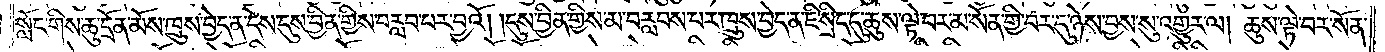སློང་གིས་ཆུ་དྲོན་མོས་ཁྲུས་བྱེད་ན་དེས་དུས་བྱིན་གྱིས་བརླབ་པར་བྱའོ། །དུས་བྱིན་གྱིས་མ་བརླབས་པར་ཁྲུས་བྱེད་ན་ཇི་སྲིད་དུ་ཆུས་ལྟེ་བར་མ་སོན་གྱི་བར་དུ་ཉེས་བྱས་སུ་འགྱུར་ལ། ཆུས་ལྟེ་བར་སོན་
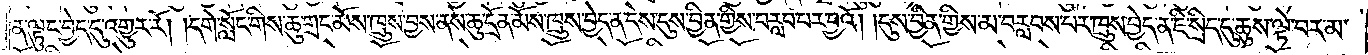ན་ལྟུང་བྱེད་དུ་འགྱུར་རོ། །དགེ་སློང་གིས་ཆུ་གྲང་མོས་ཁྲུས་བྱས་ནས་ཆུ་དྲོན་མོས་ཁྲུས་བྱེད་ན་དེས་དུས་བྱིན་གྱིས་བརླབ་པར་བྱའོ། །དུས་བྱིན་གྱིས་མ་བརླབས་པར་ཁྲུས་བྱེད་ན་ཇི་སྲིད་དུ་ཆུས་ལྟེ་བར་མ་
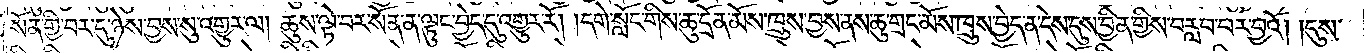སོན་གྱིས་བར་དུ་ཉེས་བྱས་སུ་འགྱུར་ལ། ཆུས་ལྟེ་བར་སོན་ན་ལྟུང་བྱེད་དུ་འགྱུར་རོ། །དགེ་སློང་གིས་ཆུ་དྲོན་མོས་ཁྲུས་བྱས་ནས་ཆུ་གྲང་མོས་ཁྲུས་བྱེད་ན་དེས་དུས་བྱིན་གྱིས་བརླབ་པར་བྱའོ། །དུས་
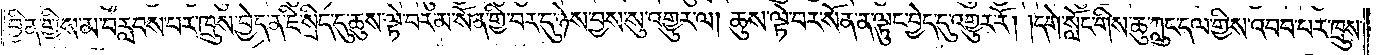བྱིན་གྱིས་མ་བརླབས་པར་ཁྲུས་བྱེད་ན་ཇི་སྲིད་དུ་ཆུས་ལྟེ་བར་མ་སོན་གྱི་བར་དུ་ཉེས་བྱས་སུ་འགྱུར་ལ། ཆུས་ལྟེ་བར་སོན་ན་ལྟུང་བྱེད་དུ་འགྱུར་རོ། །དགེ་སློང་གིས་ཆུ་ཀླུང་དལ་གྱིས་འབབ་པར་ཁྲུས་
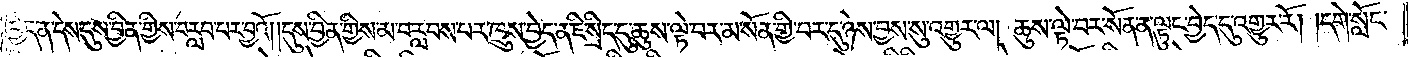བྱེད་ན་དེས་དུས་བྱིན་གྱིས་བརླབ་པར་བྱའོ། །དུས་བྱིན་གྱིས་མ་བརླབས་པར་ཁྲུས་བྱེད་ན་ཇི་སྲིད་དུ་ཆུས་ལྟེ་བར་མ་སོན་གྱི་བར་དུ་ཉེས་བྱས་སུ་འགྱུར་ལ། ཆུས་ལྟེ་བར་སོན་ན་ལྟུང་བྱེད་དུ་འགྱུར་རོ། །དགེ་སློང་
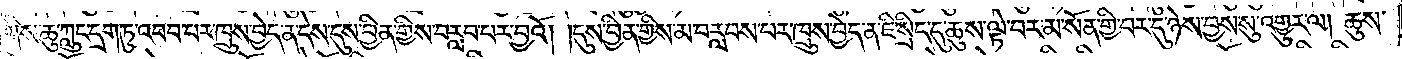གིས་ཆུ་ཀླུང་དྲག་ཏུ་འབབ་པར་ཁྲུས་བྱེད་ན་དེས་དུས་བྱིན་གྱིས་བརླབ་པར་བྱའོ། །དུས་བྱིན་གྱིས་མ་བརླབས་པར་ཁྲུས་བྱེད་ན་ཇི་སྲིད་དུ་ཆུས་ལྟེ་བར་མ་སོན་གྱི་བར་དུ་ཉེས་བྱས་སུ་འགྱུར་ལ། ཆུས་
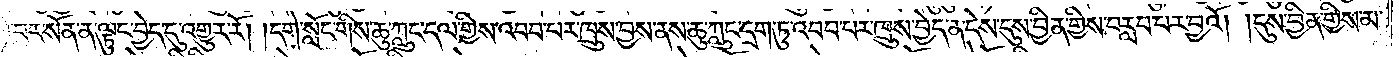ལྟེ་བར་སོན་ན་ལྟུང་བྱེད་དུ་འགྱུར་རོ། །དགེ་སློང་གིས་ཆུ་ཀླུང་དལ་གྱིས་འབབ་པར་ཁྲུས་བྱས་ནས་ཆུ་ཀླུང་དྲག་ཏུ་འབབ་པར་ཁྲུས་བྱེད་ན་དེས་དུས་བྱིན་གྱིས་བརླབ་པར་བྱའོ། །དུས་ཕྱིན་གྱིས་མ་
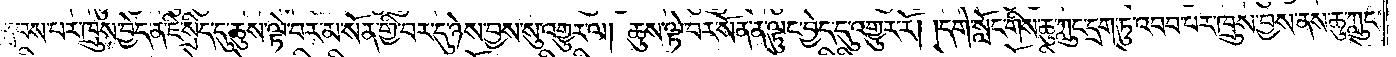བརླབས་པར་ཁྲུས་བྱེད་ན་ཇི་སྲིད་དུ་ཆུས་ལྟེ་བར་མ་སོན་གྱི་བར་དུ་ཉེས་བྱས་སུ་འགྱུར་ལ། ཆུས་ལྟེ་བར་སོན་ན་ལྟུང་བྱེད་དུ་འགྱུར་རོ། །དགེ་སློང་གིས་ཆུ་ཀླུང་དྲག་ཏུ་འབབ་པར་ཁྲུས་བྱས་ནས་ཆུ་ཀླུང་
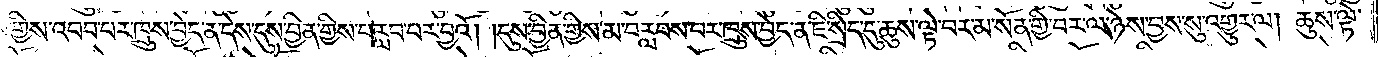དལ་གྱིས་འབབ་པར་ཁྲུས་བྱེད་ན་དེས་དུས་བྱིན་གྱིས་བརླབ་པར་བྱའོ། །དུས་བྱིན་གྱིས་མ་བརླབས་པར་ཁྲུས་བྱེད་ན་ཇི་སྲིད་དུ་ཆུས་ལྟེ་བར་མ་སོན་གྱི་བར་ལ་ཉེས་བྱས་སུ་འགྱུར་ལ། ཆུས་ལྟེ་
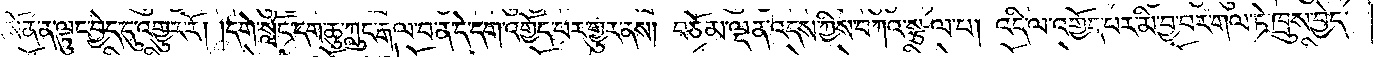བར་སོན་ན་ལྟུང་བྱེད་དུ་འགྱུར་རོ། །དགེ་སློང་དག་ཆུ་ཀླུང་རྒལ་བ་ན་དེ་དག་འགྱོད་པར་གྱུར་ནས། བཅོམ་ལྡན་འདས་ཀྱིས་བཀའ་སྩལ་པ། འདི་ལ་འགྱོད་པར་མི་བྱ་བར་གལ་ཏེ་ཁྲུས་བྱེད་
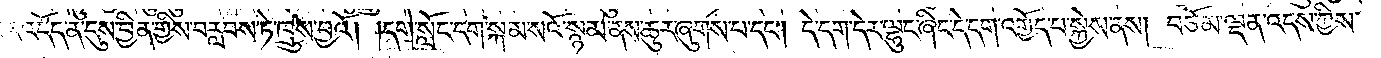པར་འདོད་ན་དུས་བྱིན་གྱིས་བརླབས་ཏེ་ཁྲུས་བྱའོ། །དགེ་སློང་དག་སྐམ་སའོ་སྙམ་ནས་ཆུར་ཞུགས་པ་དང༌། དེ་དག་དེར་ལྷུང་ཞིང་དེ་དག་འགྱོད་པ་སྐྱེས་ནས། བཅོམ་ལྡན་འདས་ཀྱིས་
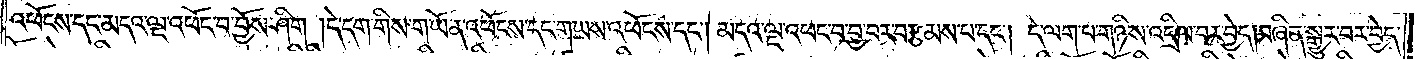འཕོངས་དང་མདའ་ལྔ་འཕོང་བ་བྱོས་ཤིག །དེ་དག་གིས་གཡོན་འཕོངས་དང་གཡས་འཕོངས་དང༌། མདའ་ལྔ་འཕང་བ་བྱ་བར་བརྩམས་པ་དང༌། དེ་ལག་པ་གཉིས་འདྲིལ་བར་བྱེད། བཞིན་སྒྱུར་བར་བྱེད་
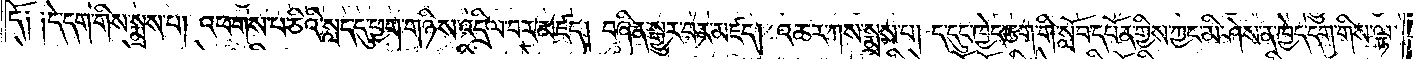དོ༑ ༑དེ་དག་གིས་སྨྲས་པ། འཕགས་པ་ཅིའི་སླད་དུ་ཕྱག་གཉིས་འདྲིལ་བར་མཛད། བཞིན་སྒྱུར་བར་མཛད། འཆར་ཀས་སྨྲས་པ། ད་དུང་ཁྱེད་ཅག་གི་སློབ་དཔོན་གྱིས་ཀྱང་མི་ཤེས་ན་ཁྱེད་དག་གིས་ལྟ་
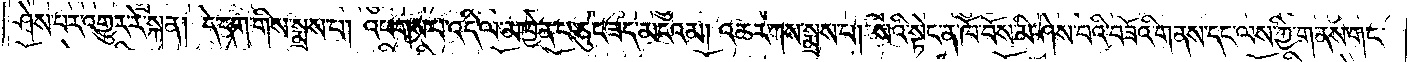ཤེས་པར་འགྱུར་རེ་སྐན། དེ་དག་གིས་སྨྲས་པ། འཕགས་པ་འདི་ལ་མཁྱེན་པ་ཅུང་ཟད་མངའམ། འཆར་ཀས་སྨྲས་པ། སའི་སྟེང་ན་ཁོ་བོས་མི་ཤེས་པའི་བཟོའི་གནས་དང་ལས་ཀྱི་ག་ནས་གང་
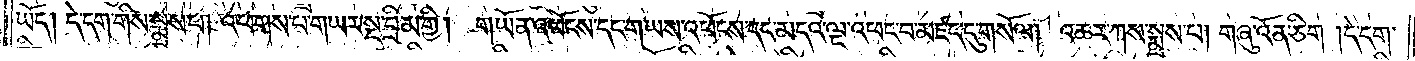ཡོད། དེ་དག་གིས་སྨྲས་པ། འཕགས་པ་གཡར་སྔ་བྲིམ་གྱི། གཡོན་འཕོངས་དང་གཡས་འཕོངས་དང་མདའ་ལྔ་འཕང་བ་མཛད་དུ་གསོལ། འཆར་ཀས་སྨྲས་པ། གཞུ་འོན་ཅིག །དེ་དག་
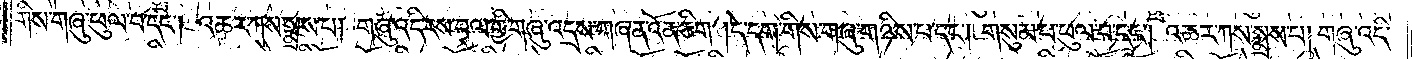གིས་གཞུ་ཕུལ་བ་དང༌། འཆར་ཀས་སྨྲས་པ། གཞུ་འདི་རས་བལ་གྱི་གཞུ་འདྲས་གཞན་འོན་ཅིག །དེ་དག་གིས་གཞུ་གཉིས་པ་དང༌། གསུམ་པ་ཕུལ་བ་དང༌། འཆར་ཀས་སྨྲས་པ། གཞུ་འདི་
